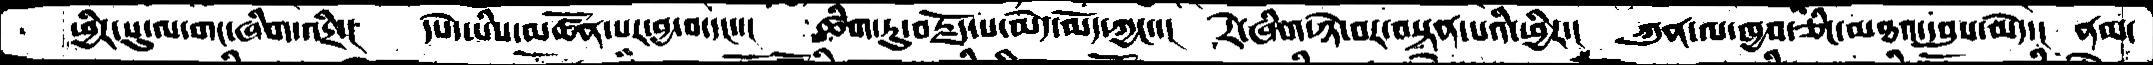ཕྱིར་སུ་ལ་གང་ཞིག་འདྲི་།   དཔེ་ཡིས་མཚོན་པར་བྱ་བ་དང་་།   ཚིག་ཏུ་བརྗོད་པ་མེད་མོད་ཀྱང་་།   རེ་ཞིག་ཉེ་བར་བསྟན་པའི་ཕྱིར་།   ཀུན་ལ་ཁྱབ་ཅིང་མཐའ་དབུས་མེད་།  ནམ་
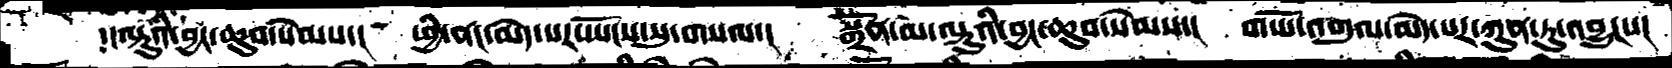་།ལྟུའི་བྱང་ཆུབ་སེམས་།   ཕྱི་ནང་མེད་པར་ཡོངས་སུ་གསལ་།    སྒྲོན་མ་ལྟུའི་བྱང་ཆུབ་སེམས་།   གཡོ་འགུལ་མེད་པར་ཀུན་ཏུ་འབྱུངས།
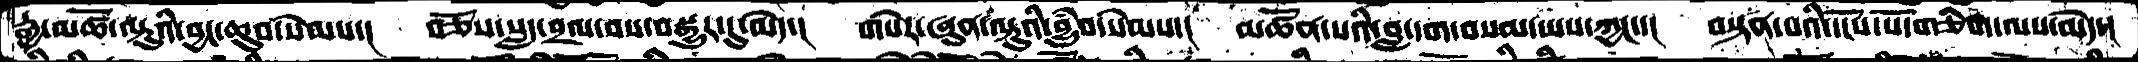རྒྱ་མཚོ་ལྟུའི་བྱང་ཆུབ་སེམས་།  བཅོས་སླད་བྲལ་བས་བསྒྱུར་དུ་མེད་།  གསེར་ཞུན་ལྟུའི་བྱུཾབ་སེམས་།  མཚོན་པའི་བླ་དག་བསམ་ཡས་ཀྱང་་།  བསྟན་པའི་དངོས་པོ་གཅིག་ལས་མེད་།
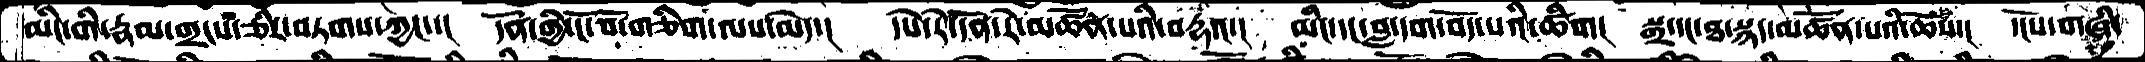མིང་གི་རྣམ་གྲངས་ཅིར་བཏགས་ཀྱང་་། དོན་གྱི་ངོ་བོ་གཅིག་ལས་མེད་། དཔེ་རེ་དོན་རེ་མཚོན་པའི་བརྡའ་། མིང་དང་བླ་དག་བོད་པའི་ཚིག། སྒྲ་དང་ཐ་སྙད་མཚོན་པའི་ཅོས་། དངོས་གཞི་
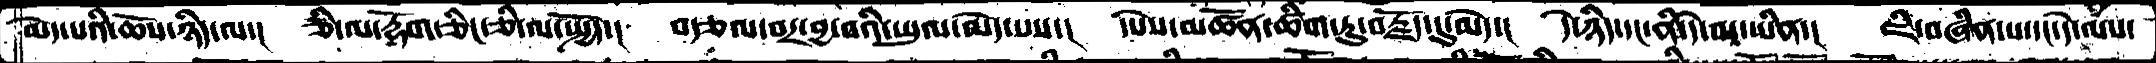མེད་པའི་ཆོས་ཉིད་ལ་།  ཅི་ལ་རྡོག་ཅིང་ཅི་ལ་སྤྱོད་།  བརྩལ་བར་བྱ་བའི་ཡུལ་མེད་པས་།  དཔེས་མཚོན་ཚིག་ཏུ་བརྗོད་དུ་མེད་།  དེ་ཉིད་དང་ནི་དེ་མ་ཡིན་།  ཇི་བཞིན་པ་དང་དེ་ལས་
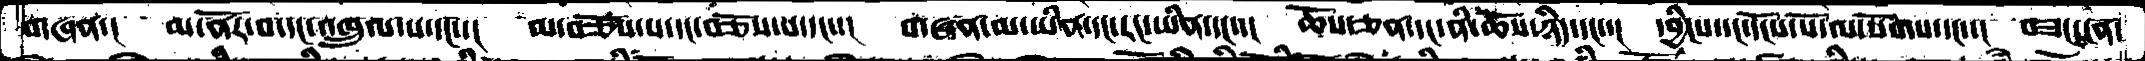གཞན་།  མ་ནོར་བ་དང་འཁྲུལ་པ་དང་་།  མ་བཅོས་པ་དང་བཅོས་པ་དང་་།  གཞན་མ་ཡིན་དང་རང་ཡིན་དང་་།  ཆོས་ཅན་དང་ནི་ཆོས་ཉིད་དང་་།  དབྱིངས་དང་དངོས་པོ་ལ་སོགས་དང་་།  བཟང་ངན་
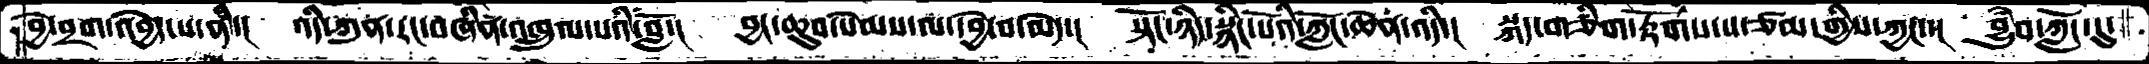བྱེ་བྲག་འབྱེད་པ་ནི་།  འདི་ཀུན་རང་བཞིན་འཁྲུལ་པའི་བློ་།  བྱང་ཆུབ་སེམས་ལ་དབྱེ་བ་མེད་།  སྟོང་ཉིད་སྙིང་པོའི་ཀློང་ཆེན་འདི་།  སྐད་གཅིག་རྟོགས་པ་ཙམ་གྱིས་ཀྱང་་།  བྱུཾབ་ཀློང་དུ་
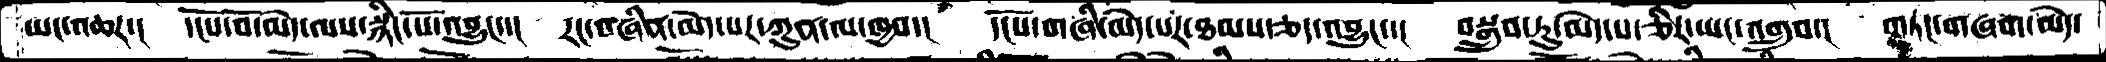ཡང་འཆར་།  དངོས་པོ་མེད་ལས་སྙིང་པོ་འབྱུང་་།  རང་བཞིན་མེད་པར་ཀུན་ལ་ཁྱབ་།  དངོས་གཞི་མེེད་པར་ཐམས་ཅད་འབྱུང་་།  བསྒྲུབ་ཏུ་མེད་པ་ཅིར་ཡང་འགྲུབ་།  གཏང་གཞག་མེད་
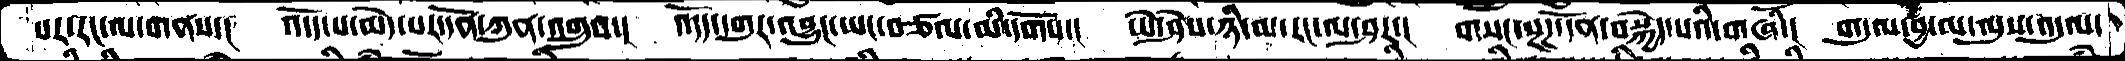པར་རང་ལ་གནས་།  འདོད་པ་མེད་པར་དོན་ཀུན་འགྲུབ་།  འདོད་དགུར་འབྱུང་ཡང་བཙལ་མི་དགོས་།  ཡེ་ཤེས་ཉི་མ་རང་ལ་ཤར་།  གསང་སྔཌ་དོན་བསྐྱེད་པའི་གཞི་།  གདུལ་བྱ་མ་ལུས་འདུལ་
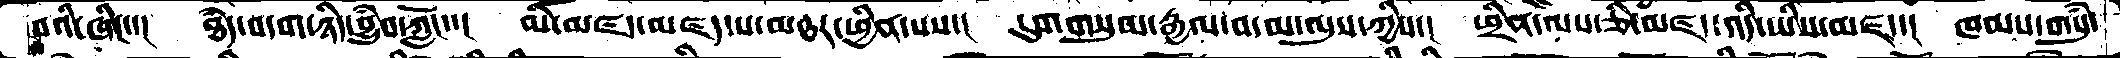བའི་ཞིང་་།  ཐཾད་བདག་ཉིད་བྱུཾབ་ཀློང་་།  མི་མཛད་མཛད་པ་མཐར་ཕྱིན་པས་།  དུས་གསུམ་རྒྱལ་བ་མ་ལུས་ཀྱིས་།  ཕྲིན་ལས་ཅི་མཛད་འདི་ཡིས་མཛད་།  ཁམས་གསུཾ་
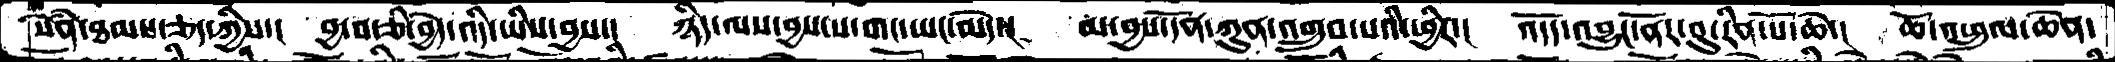སེཾན་ཐམས་ཅད་ཀྱིས་།  བྱ་བ་ཅི་བྱེད་འདི་ཡིས་བྱས་།  ཉིད་ལས་བྱས་པ་གང་ཡང་མེད་།  མ་བྱས་དོན་ཀུན་འགྲུབ་་པའི་ཕྱིར་།  འདོད་འབྱུང་ནོར་བུ་རིན་པོ་ཆེ་།  ཆོ་འཕྲུལ་ཆེན་
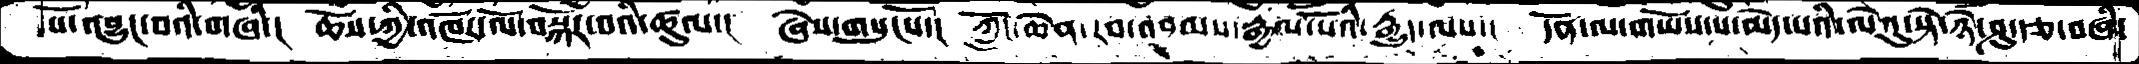པོ་འབྱུང་བའི་གཞི་།  ཆོས་ཀྱི་འཁོར་ལོ་བསྐོར་བའི་ཚུལ་།  ཞེས་གསུངསོ་།  ཀློང་ཆེན་རབ་འབྱམས་རྒྱལ་པོའི་རྒྱུད་ལས་།  དོན་ལ་གཡོས་པ་མེད་པའི་ལེའུ་སྟེ་ཉེ་ཤུ་རྩ་བཞི་
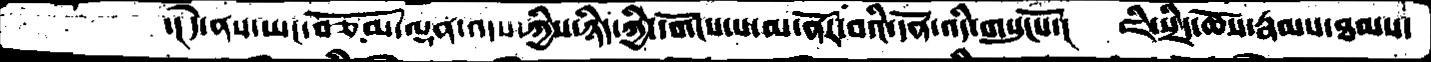་།དེ་ནས་ཡང་བཅོམ་ལྡན་འདས་ཀྱིས་ཉིད་ཀྱི་དགོངས་པ་མ་ནོར་བའི་དོན་འདི་གསུངསོ་།  ཇི་སྲིད་ཆོས་རྣམས་ཐམས་
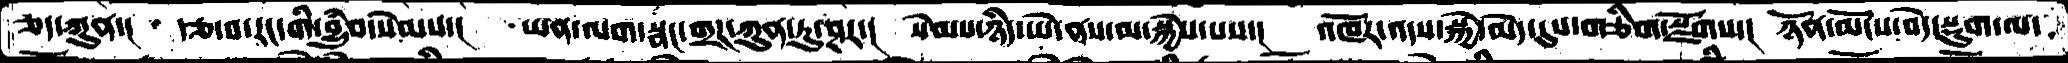ཅད་ཀུན་།  རྩ་བ་རང་གི་བྱུཾབ་སེམས་།  ཡན་ལག་སྣང་གྲཌ་ཀུན་ཏུ་ཤར་།  སེམས་ཉིད་ཡེ་ནས་མ་སྐྱེས་པས་།  འཁོར་འདས་སྐྱེ་མེད་དུས་གཅིག་སྫོགས་།  ཉོན་མོངས་བདེ་སྡུག་ལ་
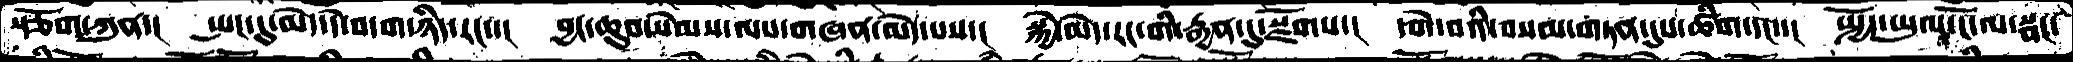སྩོག་ཀུན་།  སྤང་དུ་མེད་དེ་བདག་ཉིད་རང་་།  བྱྱང་ཆུབ་སེམས་ལས་གཞན་མེད་པས་།  སྐྱེ་མེད་རང་གི་རྒྱན་དུ་སྫོགས་།  དགེ་བའི་བསམ་གཏན་དུས་ཚིག་དང་་།  སྤྱོད་ཡུལ་ངོ་ལ་སྣང་
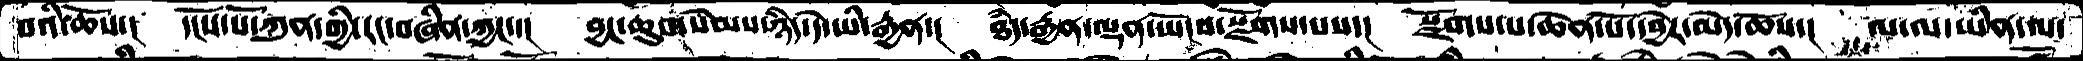བའི་ཆོས་།  དངོས་པོ་ཀུན་གྱི་རང་བཞིན་ཀྱང་་།  བྱང་ཆུབ་སེམས་ཉིད་དེ་ཡི་རྒྱན་།  ཐཾད་རྒྱན་ལྡན་ཡོངས་སྫོགས་པས་།  སྫོགས་པ་ཆེན་པོ་དབྱེར་མེད་ཆོས་།  ལ་ལ་ཡིན་ལ་
